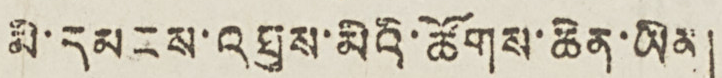མི་དམངས་འཐུས་མིའི་ཚོགས་ཆེན་ཡིན།
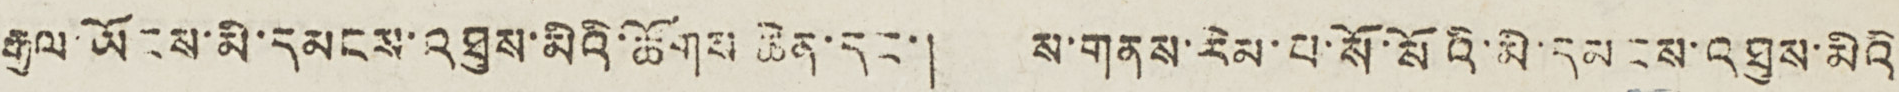རྒྱལ་ཡོངས་མི་དམངས་འཐུས་མིའི་ཚོགས ཆེན་དང་། ས་གནས་རིམ་པ་སོ་སོའི་མི་དམངས་འཐུས་མིའི་
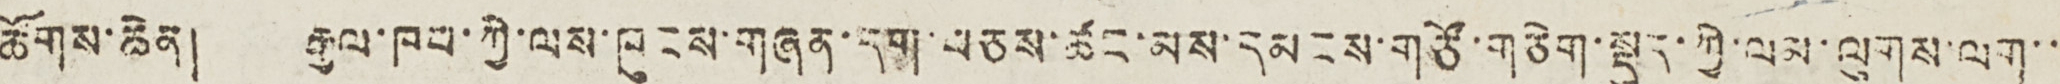ཚོགས་ཆེན། རྒྱལ་ཁབ་ཀྱི་ལས་ཁུངས་གཞན་དག་བཅས་ཚང་མས་དམངས་གཙོ་གཅིག་སྡུད་ཀྱི་ལམ་ལུགས་ལག་་་
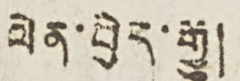ལེན་བྱེད་རྒྱུ།
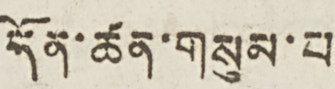དོན་ཚན་གསུམ་པ།
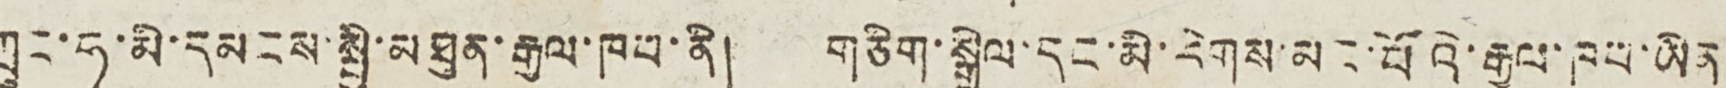ཀྲུང་ཧྭ་མི་དམངས་སྤྱི་མཐུན་རྒྱལ་ཁབ་ནི། གཅིག་སྒྲིལ་དང་མི་རིགས་མང་པོའི་རྒྱལ་ཁབ་ཡིན།
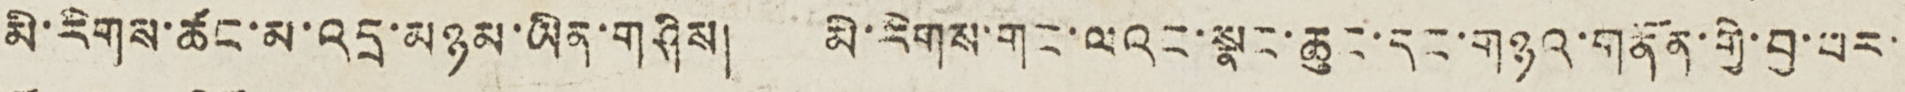མི་རིགས་ཚང་མ་འདྲ་མཉམ་ཡིན་གཤིས། མི་རིགས་གང་ལའང་སྣང་ཆུང་དང་གཉའ་གནོན་གྱི་བྱ་པར་་
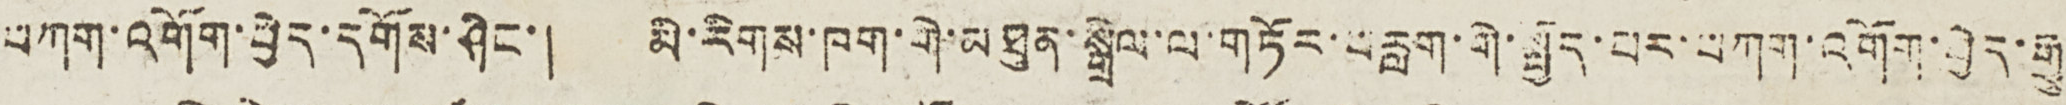བཀག་འགོག་བྱེད་དགོས་ཤིང་། མི་རིགས་ཁག་གི་མཐུན་སྒྲིལ་ལ་གཏོར་བརླག་གི་སྤྱོད་པར་བཀག་འགོག་བྱེད་རྒྱུ།
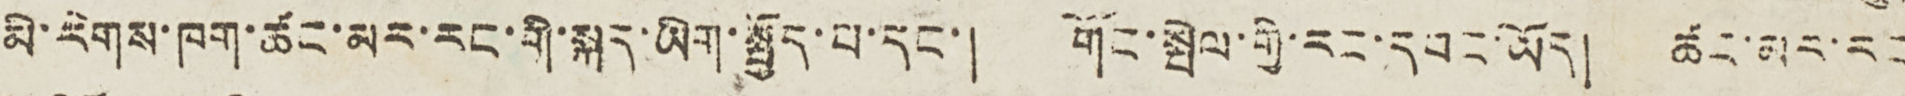མི་རིགས་ཁག་ཚང་མར་རང་གི་སྐད་ཡིག་སྤྱོད་པ་དང་། གོང་སྤེལ་གྱི་རང་དབང་ཡོད། ཚང་མར་རང་
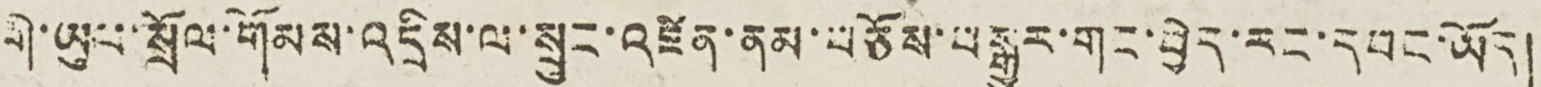གི་ཡུལ་སྲོལ་གོམས་འདྲིས་ལ་སྲུང་འཛིན་ནམ་བཅོས་བསྒྱུར་གང་བྱེད་རང་དབང་ཡོད།
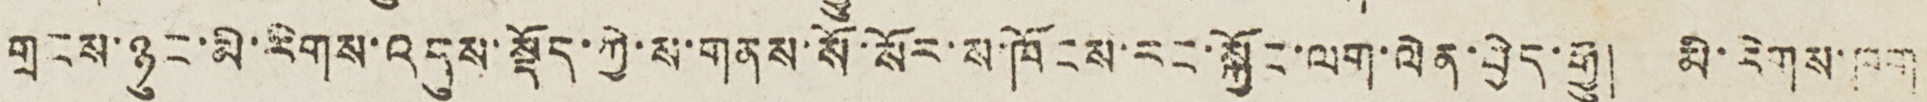གྲངས་ཉུང་མི་རིགས་འདུས་སྡོད་ཀྱི་ས་གནས་སོ་སོར་ས་ཁོངས་རང་སྐྱོང་ལག་ལེན་བྱེད་རྒྱུ། མི་རིགས་ཁག
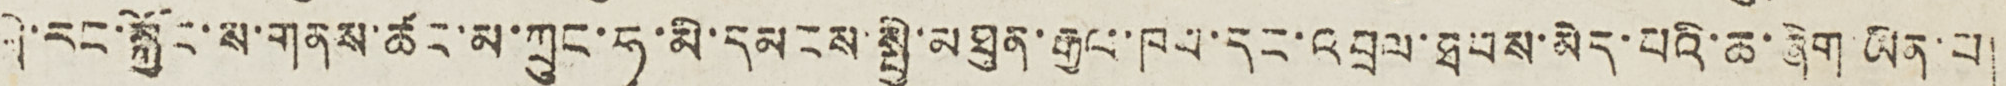གི་རང་སྐྱོང་ས་གནས་ཚང་མ་ཀྲུང་ཧྭ་མི་དམངས་སྤྱི་མཐུན་རྒྱལ་ཁབ་དང་འབྲལ་ཐབས་མེད་པའི་ཆ་ཞིག ཡིན་པ།
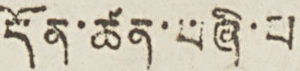དོན་ཚན་བཞི་པ།
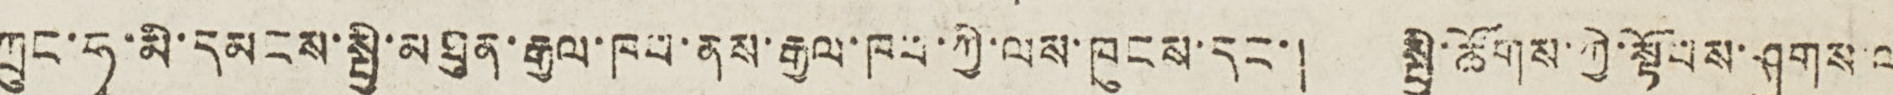ཀྲུང་ཧྭ་མི་དམངས་སྤྱི་མཐུན་རྒྱལ་ཁབ་ནས་རྒྱལ་ཁབ་ཀྱི་ལས་ཁུངས་དང་། སྤྱི་ཚོགས་ཀྱི་སྟོབས་ཤུགས་ལ
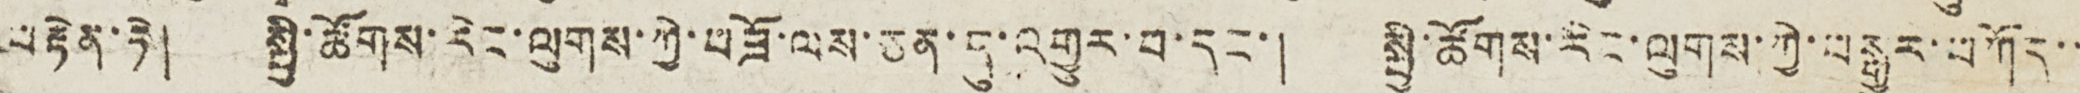བརྟེན་ཏེ། སྤྱི་ཚོགས་རིང་ལུགས་ཀྱི་བཟོ་ལས་ཅན་དུ་འགྱུར་བ་དང་། སྤྱི་ཚོགས་རིང་ལུགས་ཀྱི་བསྒྱུར་བཀོད་་
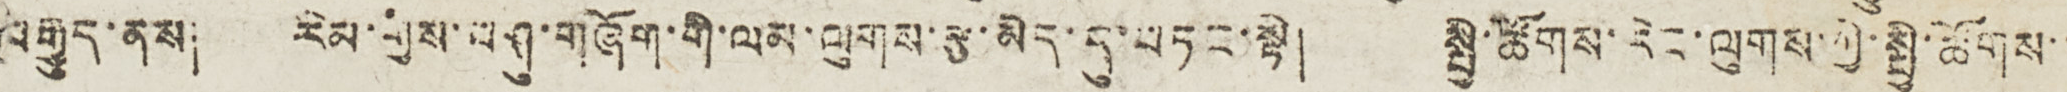བརྒྱུད་ནས། རིམ་གྱིས་བཤུ་གཞོག་གི་ལམ་ལུགས་རྩ་མེད་དུ་བཏང་སྟེ། སྤྱི་ཚོགས་རིང་ལྒུས་ཀྱི་སྤྱི་ཚོགས་་
